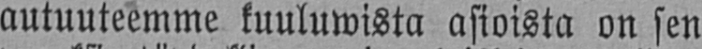autuuteemme kuuluwista asioista on sen
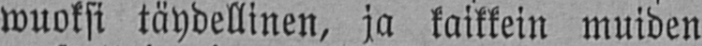wuoksi täydellinen, ja kaikkein muiden
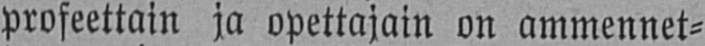profeettain ja opettajain on ammennet-
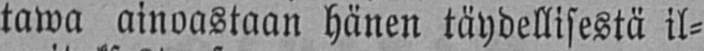tawa ainoastaan hänen täydellisestä il-
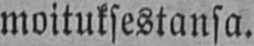moituksestansa.
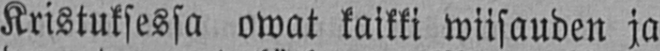Kristuksessa owat kaikki wiisauden ja
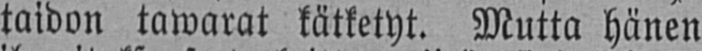taidon tawarat kätketyt. Mutta hänen
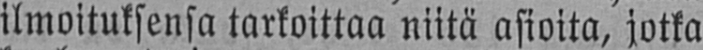ilmoituksensa tarkoittaa niitä asioita, jotka
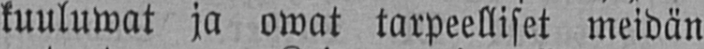kuuluwat ja owat tarpeelliset meidän
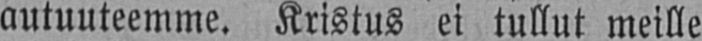autuuteemme. Kristus ei tullut meille
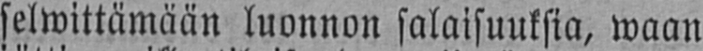selwittämään luonnon salaisuuksia, waan
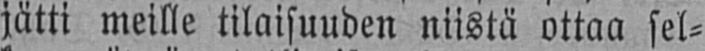jätti meille tilaisuuden niistä ottaa sel-
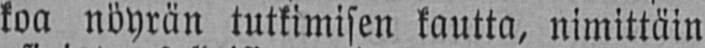koa nöyrän tutkimisen kautta, nimittäin
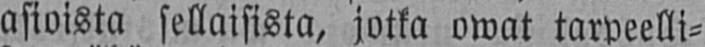asioista sellaisista, jotka owat tarpeelli-
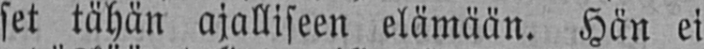set tähän ajalliseen elämään. Hän ei
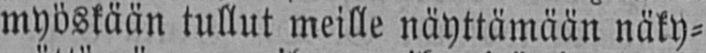myöskään tullut meille näyttämään näky-
